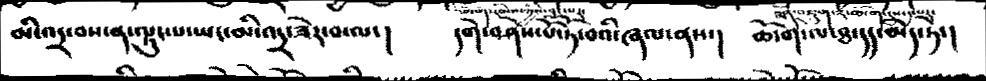མི་འདྲ་བས་ན་ལྟུང་པ་ཡང་མི་འདྲ་ཟེར་བ་ལ་།   དགེ་བཤེས་པོ་ཏོ་བའི་ཞལ་ནས་།   ཆོ་ག་ལ་ཐ་དད་མེད་ཏེ་།
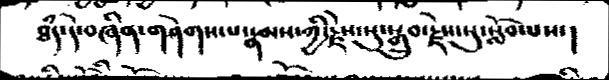ཐཾད་དེ་་བཞིན་གཤེགས་པ་རྣམས་ཀྱི་རྗེས་སུ་སྒྲུབ་རྗེས་སུ་སློབ་པས་།
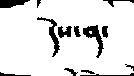དེས་ན་
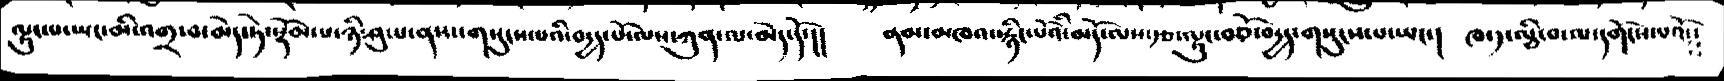ལྟུང་པ་ཡང་མི་འགྲ་བ་མེད་ཏེ་སྡོམ་པ་ཉི་ཤུ་པ་ནས་གསུངས་པའི་བདྱད་པོ་ལས་ཀུན་ལ་མེད་དོ་།།  ནམ་མཁའ་སྙིང་པོའི་མདོ་ལས་རྩ་ལྟུང་བཅོ་བདྱད་གསུངས་པ་ཡང་།  ཁ ༡་ལྕི་བ་ལ་དགོངས་པའོ༴༴
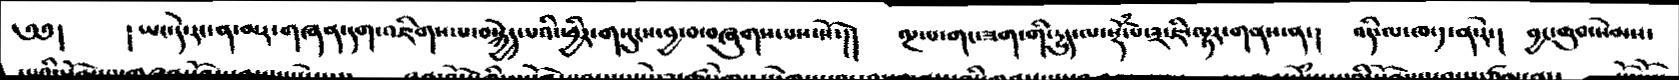༄༅།   ། ཡང་དེ་རང་ན་མར་གཞན་དག་འཇིགས་པ་བསྐྱེད་པའི་ཕྱིར་གསུངས་བྱ་བ་བཞུགས་པས་སོ་།།   ལྔ་པ་གང་ཟག་གི་དྱུད་ལ་སྡོཾ་པ་༣་ཇི་ལྟར་གནས་ན་།   འདི་ལ་ཁ་༡་ན་རེ་།   བྱང་ཆུབ་སེམས་
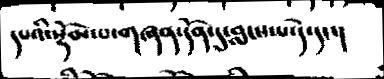དཔའི་སྡོམ་པ་གཞན་དོན་དུ་བླངས་པ་དེ་དང་་།
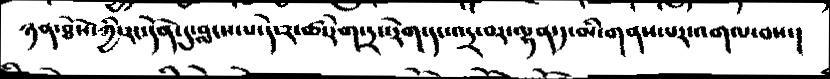ཉན་ཐོས་ཀྱི་རང་དོན་དུ་བླངས་པ་དེ་༢་ཚ་རེག་དྲང་རེག་དང་འདྲ་བར་ལྷན་༡་མི་གནས་པར་འགལ་བས་།
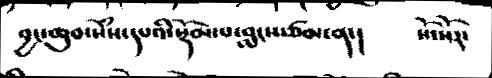བྱང་ཆུབ་སེཾས་དཔའི་སྡོམ་པ་བླངས་ཙམ་ན་།  སོ་སོར་
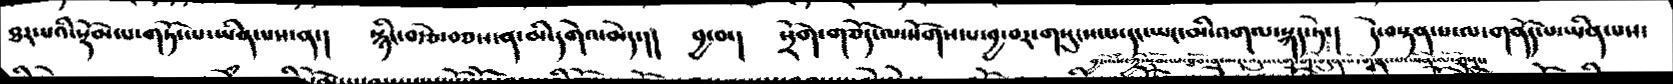ཐར་པའི་སྡོམ་པ་གཏོང་པ་ཡིན་པས་ན་།  སྙིང་བརྩེ་བཅས་ན་མི་དགེའ་མེད་།།  བྱ་བ་།  སྲོག་གཅོད་ལསོགས་པ་བྱ་བར་གསུངས་པ་དང་ཡང་མི་འགལ་སྐད་ཏེ་།  དེ་བསྟན་པ་ལ་གནོད་པ་ཡིན་པས་
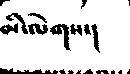མི་ལེགས་།
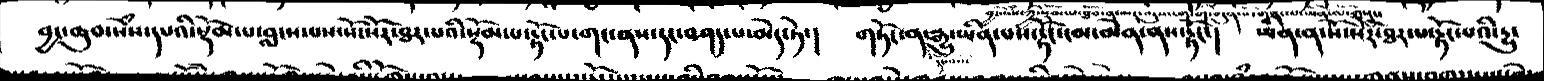བྱང་ཆུབ་སེཾས་དཔའི་སྡོམ་པ་བླངས་པས་སོ་སོར་ཐར་པའི་སྡོམ་པ་རྟོང་པ་གང་ནས་དང་བཤད་པ་མེད་ཏེ་།   གཏོང་ན་རྒྱུ་ཡིན་པས་རྟོང་ངམ་མིན་ནས་རྟོང་།   ཡིན་ན་སོ་སོར་ཐར་པ་རྟོང་པའི་རྱུ་
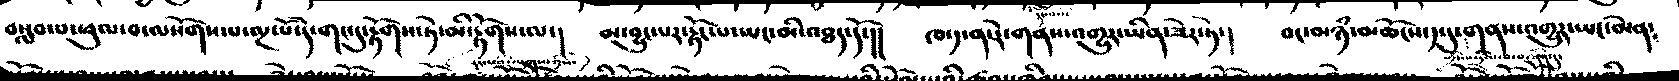བསླབ་པ་ཕུལ་བ་ལསོགས་པ་ལྔ་པོ་དེ་གང་དུ་རྟོགས་ཏེ་མི་རྟོགས་ལ་།   མ་བྱུང་པར་རྟོང་པ་ཡང་མི་འཐད་དོ་།།   ཁ་༡་ན་རེ་གནས་འགྱུར་ཡིན་ཟེར་ཏེ་།  བང་མཉཾ་མཆོངས་ད་དུ་གནས་འགྱུར་ཡང་མིན་
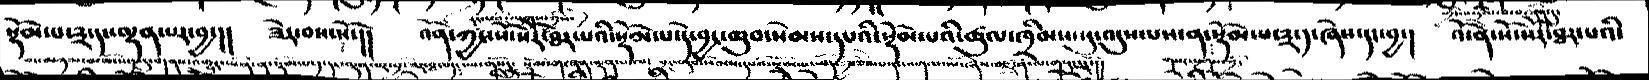སྡོམ་པ་༣་དང་ལྡན་པར་བྱ་།།   ཟེར་བས་སོ་།།   འོན་ཀྱང་སོ་སོར་ཐར་པའི་སྡོམ་པ་དེ་བྱང་ཆུབ་སེམས་དཔའི་སྡོམ་པའི་ཚུལ་ཁྲིམས་སུ་འདུས་པས་ན་སྡོམ་པ་༣་ད་ཞེས་དང་བྱ་།  འོ་ན་སོ་སོར་ཐར་པའི་
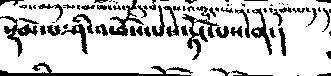སྡོམ་པ་ཤི་འཕོས་པས་རྟོང་པས་ན་།
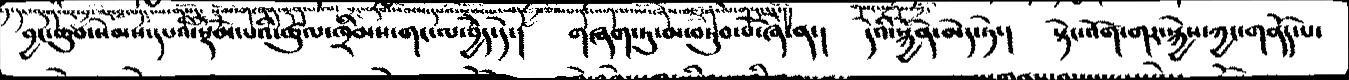བྱང་ཆུབ་སེམས་དཔའི་སྡོམ་པའི་ཚུལ་ཁྲིམས་གང་ལ་བྱེད་དེ་།   གཞག་ཏུ་མ་བཏུབ་བོ་ཞེ་ན་།    དེའི་སྐྱོན་མེད་ཏེ་།  སྟེང་འོག་གར་སྐྱེས་ཀྱང་གནོད་པ་
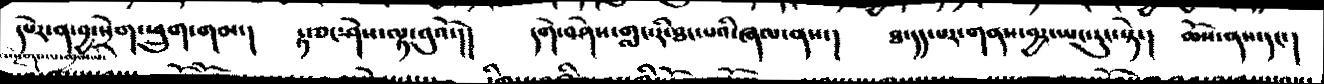དཔེར་ན་བྱ་སྲེག་ཕྲུག་གམ་།  རྟ་ཅང་ཤེས་ལྟ་བུའོ་།།   དགེ་བཤེས་གླང་རི་ཐང་པའི་ཞལ་ནས་།   ཐ་དད་པར་གནས་བྱར་ཡང་རུང་སྟེ་།   ཆོས་ནས་དང་།
